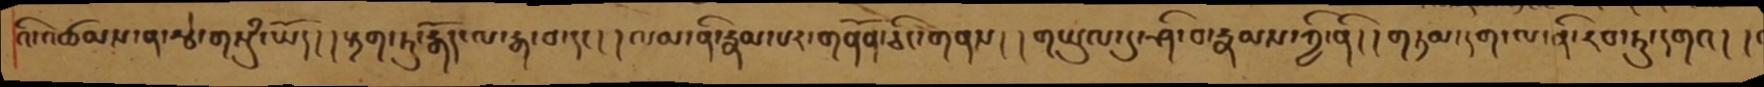འདིའཚམས་ན་རྩེ་གསུཾ་ཡོད །།རྟག་ཏུ་རྒོད་ལ་རྒ་བ་དང།། ལམ་ནི་རྣམ་པར་གནོན་ཅིང་གནས །།གཡུལ་དུ་ཤི་བ་རྣམས་ཀྱི་ནི། །གཏམ་དག་ལ་ནི་རབ་ཏུ་དགའ། །
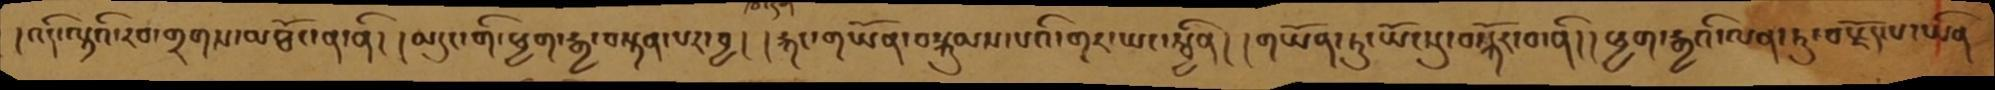།འདི་ལྟའི་རབ་གྲགས་མཐོང་ན་ནི། །མདུང་གི་ཕྱག་རྒྱ་བསྟན་པར་བྱ། །རྐང་གཡོན་བསྐུམས་པའི་གར་ཡང་སྦྱིན། །གཡོན་ཏུ་ཡོངསུ་བསྐོར་བ་ནི།།ཕྱག་རྒྱའི་ལན་ཏུ་བརྗོད་པ་ཡིན
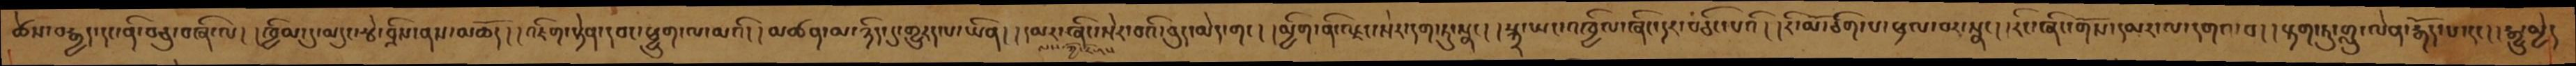ཆོས་བརྒྱད་དང་ནི་བཅུ་བཞི་ལ། །ཁྱིམ་དུ་མདུང་རྩེ་བྲིས་ནས་མཆོད། །འཇིག་རྟེན་དབང་ཕྱུག་ལ་མའི། །མཚན་མ་ཉིད་དུ་གྱུརད་པ་ཡིན། །དམར་ཞིང་སེར་བའི་བུད་མེད་གང། །མྱིག་ནི་ལྗང་སེར་དག་ཏུ་སྣང། །སྐྲ་ཡང་འཁྱིལ་ཞིང་དར་བཅིང་པའི། །རི་མོ་ཅིག་པ་ཕྲལ་བར་སྣང། །རིང་ཞིང་གོས་དམར་ལ་དགའ་བ། །རྟག་ཏུ་གླུ་ལེན་རྒོད་པ་དང། །རྒྱུ་མྱེད
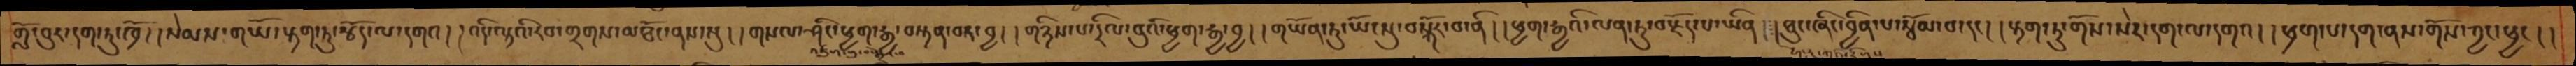གློ་བུར་དག་ཏུ་ཁྲོ། །སེམས་གཡོ་རྟག་ཏུ་རྩོད་ལ་དགའ། །འདི་ལྟའི་རབ་གྲགས་མཐོང་ནས་སུ། །གསལ་ཤིང་ཕྱག་རྒྱ་བསྟན་བར་བྱ། །གཉིས་པ་དྲིལ་བུའི་ཕྱག་རྒྱ་བྱ། །གཡོན་ཏུ་ཡོངསུ་བསྐོར་བ་ནི། །ཕྱག་རྒྱའི་ལན་ཏུ་བརྗོད་པ་ཡིན། །ཐུང་ཞིང་བྱིན་པ་རྩོམ་བ་དང། །རྟག་ཏུ་གོས་སེར་དག་ལ་དགའ། །ཕྲག་པ་དག་ནས་གོས་ཀྱང་ཕྱང། །
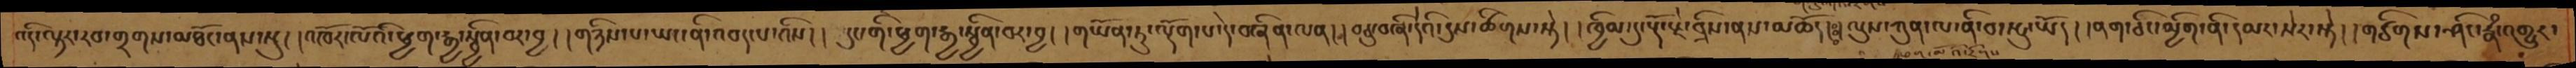འདི་ལྟར་རབ་གྲགས་མཐོང་ནས་སུ། །འཁོར་ལོའི་ཕྱག་རྒྱ་སྦྱིན་བར་བྱ། །གཉིས་པ་ཡང་ནི་འབད་པ་འིས། །དུང་གི་ཕྱག་རྒྱ་སྦྱིན་བར་བྱ། །གཡོན་ཏུ་ལྡོག་པ་དེ་བཞིན་ལན། །བཅུ་བཞི་དེའི་དུས་ཚིགས་སྟེ། །ཁྱིམ་དུ་རྡོ་རྗེ་བྲིས་ནས་མཆོད། ཿ  །ལུས་ཀུན་ལ་ནི་བ་སྤུ་ཡོད། །ནག་ཅིང་མྱིག་ནི་དམར་སེར་སྟེ། །གཙིགས་ཤིང་རྣཾ་འགྱུར་
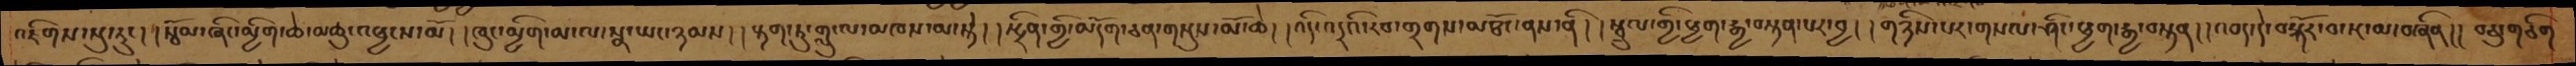འཇིགས་སུ་རུང། །སྦོམ་ཞིང་མྱིག་ཆེ་མཆུ་འཕྱངས་མོ། །ཁུང་མྱིག་མ་ལ་སྣ་ཡང་ཉམས། །རྟག་ཏུ་གླུ་ལ་མཁས་མ་སྟེ། །སྤྲིན་གྱི་མདོག་ཅན་གསུས་མོ་ཆེ། །འདི་འདྲའི་རབ་གྲགས་མཐོང་ནས་ནི། །སྦྲུལ་གྱི་ཕྱག་རྒྱ་བསྟན་པར་བྱ། །གཉིས་པར་གསལ་ཤིང་ཕྱག་རྒྱ་བསྟན། །འབད་དེ་བསྐོར་བ་སྔ་མ་བཞིན།། བཅུ་གཅིག
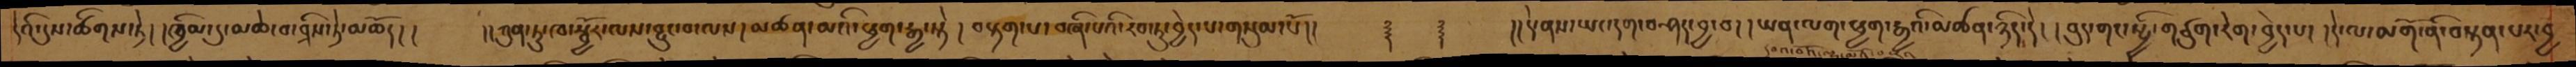དེའི་དུས་ཚིགས་ཏེ། །ཁྱིམ་དུ་མཆེ་བ་བྲིས་ཏེ་མཆོད།།   །།ཀུན་ཏུ་ཁ་སྦྱོར་ལས་བྱུང་བ་ལས། མཚན་མའི་ཕྱག་རྒྱ་སྟེ། བརྟག་པ་བཞི་པའི་རབ་ཏུ་བྱེད་པ་གསུམ་པོ།།   ༈  ༈  །།དེ་ནས་ཡང་དག་བཤད་བྱ་བ། །ཡན་ལག་ཕྱག་རྒྱའི་མཚན་ཉིད་དེ། །བུད་གང་སྤྱི་གཙུག་རེག་བྱེད་པ། །དེ་ལ་མགོ་ནི་བསྟན་པར་བྱ
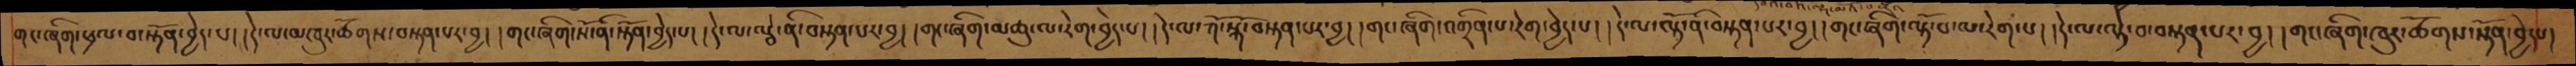གང་ཞིག་ཕྲལ་བ་སྟོན་བྱེད་པ། །དེ་ལ་མཁུར་ཚོགས་བསྟན་པར་བྱ། །གང་ཞིག་སོ་ནི་སྟོན་བྱེད་པ། །དེ་ལ་ལྕེ་ནི་བསྟན་པར་བྱ། །གང་ཞིག་མཆུ་ལ་རེག་བྱེད་པ། །དེ་ལ་ཀོ་སྐོ་བསྟན་པར་བྱ། །གང་ཞིག་འགྲིན་པ་རེག་བྱེད་པ། །དེ་ལ་ལྟོ་ནི་བསྟན་པར་བྱ། །གང་ཞིག་ལྟོ་བ་ལ་རེག་པ། །དེ་ལ་ལྟེ་བ་བསྟན་པར་བྱ། །གང་ཞིག་ཁུར་ཚོགས་སྟོན་བྱེད་པ།
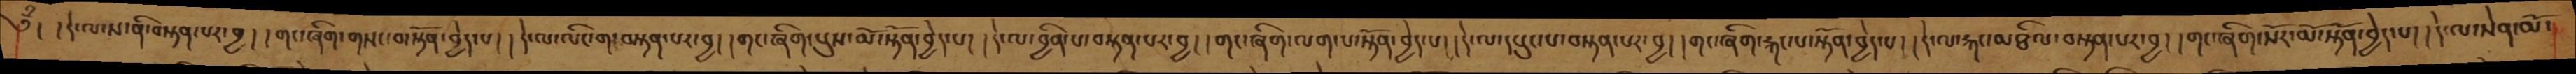༄ྃ། །དེ་ལ་ས་ནི་བསྟན་པར་བྱ། །གང་ཞིག་གསང་བ་སྟོན་བྱེད་པ། །དེ་ལ་ལིང་ག་བསྟན་པར་བྱ། །གང་ཞིག་པུས་མོ་སྟོན་བྱེད་པ། །དེ་ལ་བྱིན་པ་བསྟན་པར་བྱ། །གང་ཞིག་ལག་པ་སྟོན་བྱེད་པ། །དེ་ལ་དཔུང་པ་བསྟན་པར་བྱ། །གང་ཞིག་རྐང་པ་སྟོན་བྱེད་པ། །དེ་ལ་རྐང་མཐིལ་བསྟན་པར་བྱ། །གང་ཞིག་སོར་མོ་སྟོན་བྱེད་པ། །དེ་ལ་སེན་མོ་
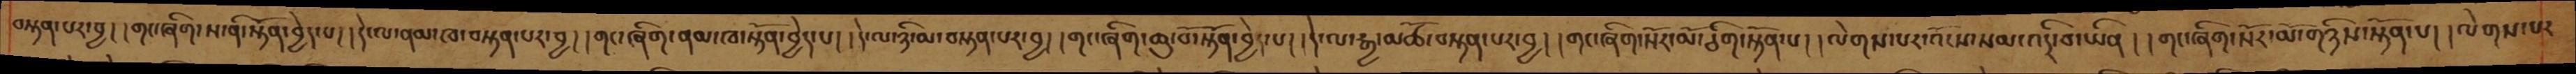བསྟན་པར་བྱ།། གང་ཞིག་ས་ནི་སྟོན་བྱེད་པ།། དེ་ལ་ནམ་ཁ་བསྟན་པར་བྱ།། གང་ཞིག་ནམ་ཁ་སྟོན་བྱེད་པ།། དེ་ལ་ཉི་མ་བསྟན་པར་བྱ།། གང་ཞིག་ཆུ་བོ་སྟོན་བྱེད་པ།། དེ་ལ་རྒྱ་མཚོ་བསྟན་པར་བྱ།། གང་ཞིག་སོར་མོ་ཅིག་སྟོན་པ།། ལེགས་པར་འོངས་སམ་འདྲི་བ་ཡིན།། གང་ཞིག་སོར་མོ་གཉིས་སྟོན་པ།། ལེགས་པར
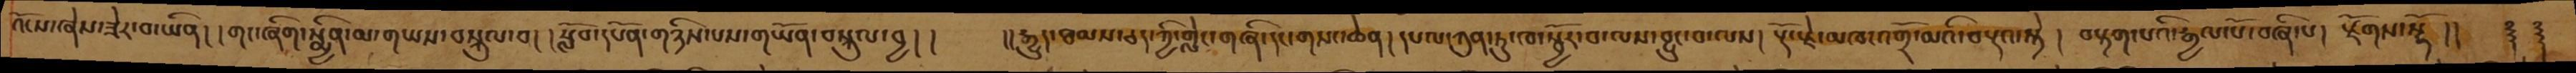འོངས་ཞེས་ཟེར་བ་ཡིན།། གང་ཞིག་སྨྱིན་མ་གཡས་བསྐུལ་བ། །སློབ་དཔོན་གཉིས་པས་གཡོན་བསྐུམ་བྱ།།   །།རྒྱུད་ཐམས་ཅད་ཀྱི་གླེང་གཞི་དང་གསང་ཆེན། དཔལ་ཀུན་ཏུ་ཁ་སྦྱོར་བ་ལསབྱུང་བ་ལས་། རྡོ་རྗེ་མཁ་འགྲོ་མའི་བརྡའ་སྟེ ། བརྟག་པའི་རྒྱལ་པོ་བཞི་པ ། སྫོགས་སྷོ །། ༐༐
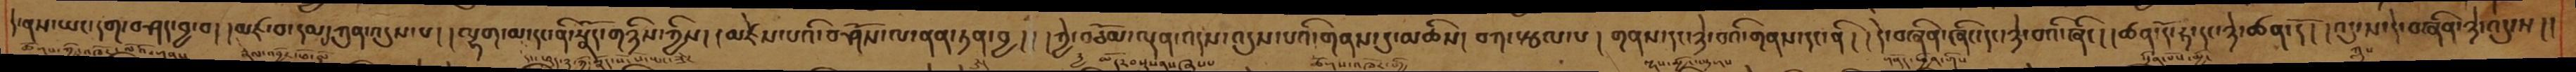དེ་ནས་ཡང་དག་བཤད་བྱ་བ། །མཛ་བ་དམ་པ་ཀུན་འདུས་པ། །ལྷག་མ་དང་ནི་སྣོད་གཉིས་ཀྱིས། །མཛེས་པའི་བཤོས་ལ་ནན་ཏན་བྱ། །ཀྱེ་བཅོམ་ལྡན་འདས་འདུས་པའི་གནས་དུ་མཆིས། བཀའ་སྩལ་པ། གནས་དང་ཉེ་བའི་གནས་དང་ནི། དེ་བཞིན་ཞིང་དང་ཉེ་བའི་ཞིང། །ཆན་དོ་ཧ་དང་ཉེ་ཚན་དོ། །འདུ་ས་དེ་བཞིན་ཉེ་འདུ་ས།།
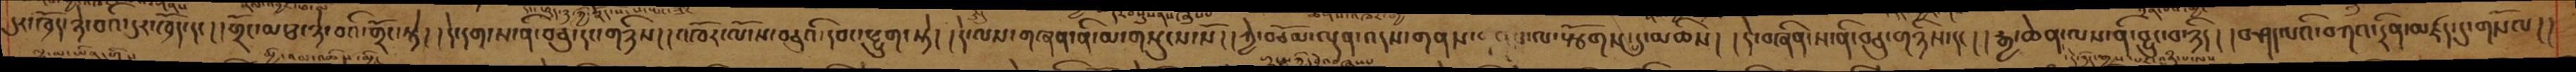དུར་ཁྲོད་ཉེ་བའི་དུར་ཁྲོད་དང། །གྲོང་མཐ་ཉེ་བའི་གྲོང་སྟེ། །དེ་དག་ས་ནི་བཅུ་དང་གཉིས། །འཁོར་ལོ་ས་བཅུའི་དབང་ཕྱུག་སྟེ། །དེ་ལས་གཞན་ནི་མ་གསུངས་སོ། །ཀྱེ་བཅོམ་ལྡན་འདས་གནས་གནས་ལ་སྩོགས་དུ་མཆིས། །དེ་བཞིན་ས་ནི་བཅུ་གཉིས་དང། །རྒྱ་ཆེན་ལས་ནི་བྱུང་བ་ཉིད། །བཤད་པའི་བཀའ་དྲིན་མཛད་དུ་གསོལ།།
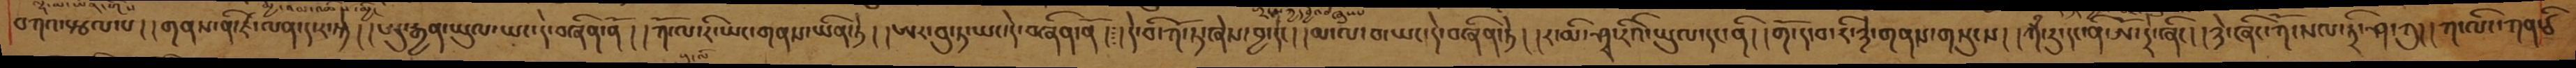བཀའ་སྩལ་པ། །གནས་ནི་ཛ་ལན་ད་ར་སྟེ། །ཨུ་རྒྱན་ཡུལ་ཡང་དེ་བཞིན་ནོ། །ཀོ་ལ་རི་ཡང་གནས་ཡིན་ཏེ། །ཨར་བུ་ཏ་ཡང་དེ་བཞིན་ནོ། དེ་བི་ཀོ་ཏ་ཞེས་བྱ་དང། །མ་ལ་བ་ཡང་དེ་བཞིན་ཏེ། །ར་མི་ཤྭ་རིའི་ཡུལ་དང་ནི། །གོ་ད་བ་རི་ཉེ་གནས་གསུངས། །ཀྃ་རུ་དང་ནི་ཨོ་དྲེ་ཞིང། །ཉེ་ཞིང་ཀོ་སལ་ཏྲི་ཤ་ཀུ། །ཀ་ལིང་ཀན་ཙི
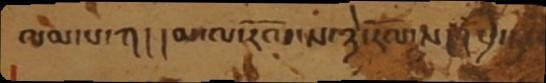ལམ་པ་ཀ། །མ་ལ་རོལ་ས་ཉེ་རོལ་ས། །པྲེ་ཏ་
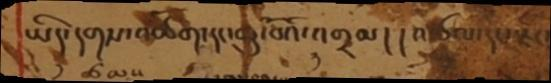ཡིད་དགས་འཚོག་དང་ཆུ་བོའི་འགྲམ། །འཚལ་དང་རྗིང་
